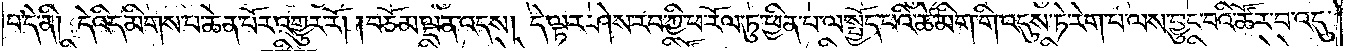པ་དེ་ནི། དེའི་དམིགས་པ་ཆེན་པོར་འགྱུར་རོ། །བཅོམ་ལྡན་འདས། དེ་ལྟར་ཤེས་རབ་ཀྱི་ཕ་རོལ་ཏུ་ཕྱིན་པ་ལ་སྤྱོད་པའི་ཚེ་མིག་གི་འདུས་ཏེ་རེག་པ་ལས་བྱུང་བའི་ཚོར་བ་འདུ་
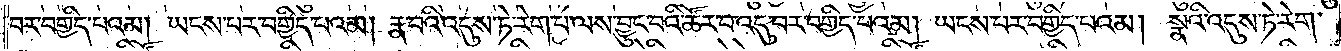བར་བགྱིད་པའམ། ཡངས་པར་བགྱིད་པའམ། རྣ་བའི་འདུས་ཏེ་རེག་པ་ལས་བྱུང་བའི་ཚོར་བ་འདུ་བར་བགྱིད་པའམ། ཡངས་པར་བགྱིད་པའམ། སྣའི་འདུས་ཏེ་རེག་
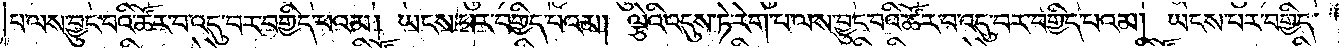པ་ལས་བྱུང་བའི་ཚོར་བ་འདུ་བར་བགྱིད་པའམ། ཡངས་པར་བགྱིད་པའམ། ལྕེའི་འདུས་ཏེ་རེག་པ་ལས་བྱུང་བའི་ཚོར་བ་འདུ་བར་བགྱིད་པའམ། ཡངས་པར་བགྱིད་
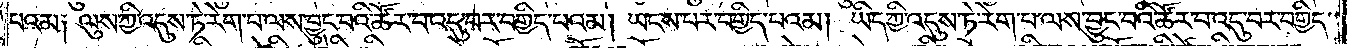པའམ༑ ལུས་ཀྱི་འདུས་ཏེ་རེག་པ་ལས་བྱུང་བའི་ཚོར་བ་འདུ་བར་བགྱིད་པའམ། ཡངས་པར་བགྱིད་པའམ། ཡིད་ཀྱི་འདུས་ཏེ་རེག་པ་ལས་བྱུང་བའི་ཚོར་བ་འདུ་བར་བགྱིད་
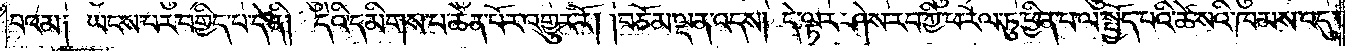པའམ༑ ཡངས་པར་བགྱིད་པ་དེ་ནི། དེའི་དམིགས་པ་ཆེན་པོར་འགྱུར་རོ། །བཅོམ་ལྡན་འདས། དེ་ལྟར་ཤེས་རབ་ཀྱི་ཕ་རོལ་ཏུ་ཕྱིན་པ་ལ་སྤྱོད་པའི་ཚེ་སའི་ཁམས་འདུ་
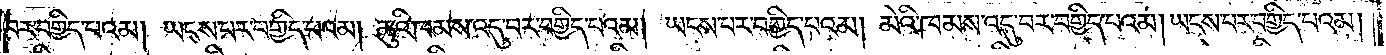བར་བགྱིད་པའམ། ཡངས་པར་བགྱིད་པའམ། ཆུའི་ཁམས་འདུ་བར་བགྱིད་པའམ། ཡངས་པར་བགྱིད་པའམ། མེའི་ཁམས་འདུ་བར་བགྱིད་པའམ། ཡངས་པར་བགྱིད་པའམ།
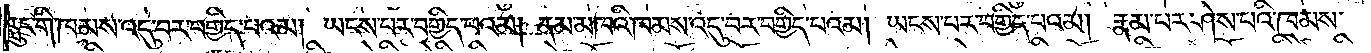རླུང་གི་ཁམས་འདུ་བར་བགྱིད་པའམ། ཡངས་པར་བགྱིད་པའམ། ནམ་མཁའི་ཁམས་འདུ་བར་བགྱིད་པའམ། ཡངས་པར་བགྱིད་པའམ། རྣམ་པར་ཤེས་པའི་ཁམས་
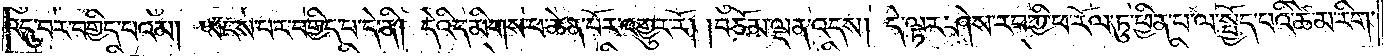འདུ་བར་བགྱིད་པའམ། ཡངས་པར་བགྱིད་པ་དེ་ནི། དེའི་དམིགས་པ་ཆེན་པོར་འགྱུར་རོ། །བཅོམ་ལྡན་འདས། དེ་ལྟར་ཤེས་རབ་ཀྱི་ཕ་རོལ་ཏུ་ཕྱིན་པ་ལ་སྤྱོད་པའི་ཚེ་མ་རིག་
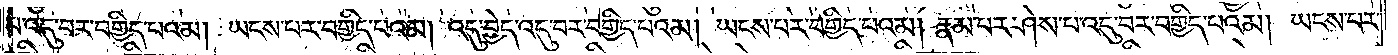པ་འདུ་བར་བགྱིད་པའམ། ཡངས་པར་བགྱིད་པའམ། འདུ་བྱེད་འདུ་བར་བགྱིད་པའམ། ཡངས་པར་བགྱིད་པའམ། རྣམ་པར་ཤེས་པ་འདུ་བར་བགྱིད་པའམ། ཡངས་པར་
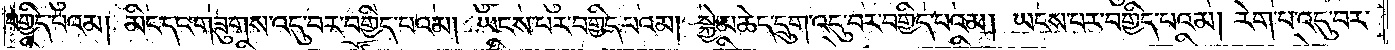བགྱིད་པའམ། མིང་དང་གཟུགས་འདུ་བར་བགྱིད་པའམ། ཡངས་པར་བགྱིད་པའམ། སྐྱེ་མཆེད་དྲུག་འདུ་བར་བགྱིད་པའམ། ཡངས་པར་བགྱིད་པའམ། རེག་པ་འདུ་བར་
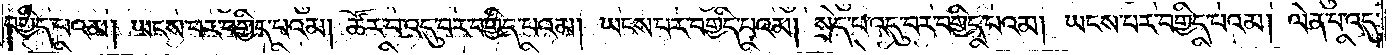བགྱིད་པའམ། ཡངས་པར་བགྱིད་པའམ། ཚོར་བ་འདུ་བར་བགྱིད་པའམ། ཡངས་པར་བགྱིད་པའམ། སྲེད་པ་འདུ་བར་བགྱིད་པའམ། ཡངས་པར་བགྱིད་པའམ། ལེན་པ་འདུ་
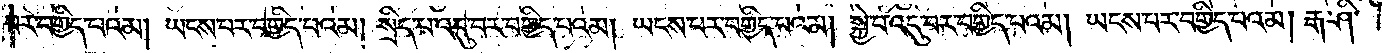བར་བགྱིད་པའམ། ཡངས་པར་བགྱིད་པའམ། སྲིད་པ་འདུ་བར་བགྱིད་པའམ། ཡངས་པར་བགྱིད་པའམ། སྐྱེ་བ་འདུ་བར་བགྱིད་པའམ། ཡངས་པར་བགྱིད་པའམ། རྒ་ཤི་
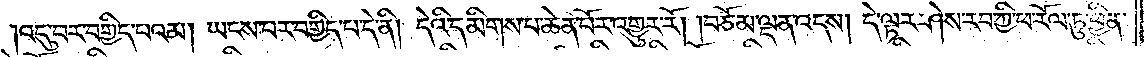འདུ་བར་བགྱིད་པའམ། ཡངས་པར་བགྱིད་པ་དེ་ནི། དེའི་དམིགས་པ་ཆེན་པོར་འགྱུར་རོ། །བཅོམ་ལྡན་འདས། དེ་ལྟར་ཤེས་རབ་ཀྱི་ཕ་རོལ་ཏུ་ཕྱིན་
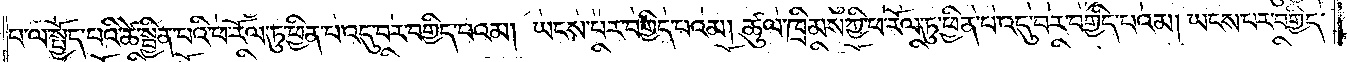པ་ལ་སྤྱོད་པའི་ཚེ་སྦྱིན་པའི་ཕ་རོལ་ཏུ་ཕྱིན་པ་འདུ་བར་བགྱིད་པའམ། ཡངས་པར་བགྱིད་པའམ། ཚུལ་ཁྲིམས་ཀྱི་ཕ་རོལ་ཏུ་ཕྱིན་པ་འདུ་བར་བགྱིད་པའམ། ཡངས་པར་བགྱིད་
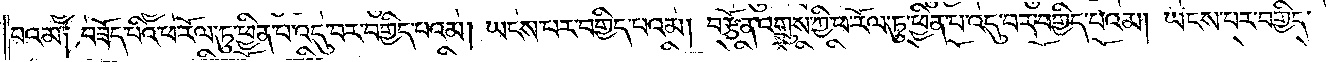པའམ༑ བཟོད་པའི་ཕ་རོལ་ཏུ་ཕྱིན་པ་འདུ་བར་བགྱིད་པའམ། ཡངས་པར་བགྱིད་པའམ། བརྩོན་འགྲུས་ཀྱི་ཕ་རོལ་ཏུ་ཕྱིན་པ་འདུ་བར་བགྱིད་པའམ། ཡངས་པར་བགྱིད་
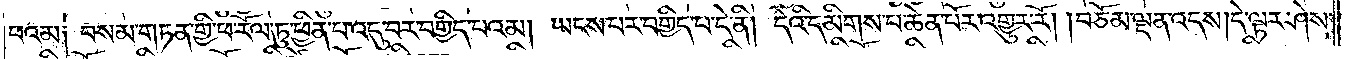པའམ༑ བསམ་གཏན་གྱི་ཕ་རོལ་ཏུ་ཕྱིན་པ་འདུ་བར་བགྱིད་པའམ། ཡངས་པར་བགྱིད་པ་དེ་ནི། དེའི་དམིགས་པ་ཆེན་པོར་འགྱུར་རོ། །བཅོམ་ལྡན་འདས། དེ་ལྟར་ཤེས་
